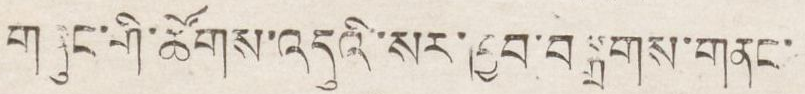གཞུང་གི་ཚོགས་འདུའི་སར་ཁྱབ་བསྒྲགས་གནང་
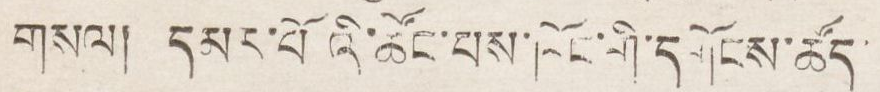གསལ། དམར་པོའི་ཚོང་པས་ཁོང་གི་དགོངས་ཚོད་
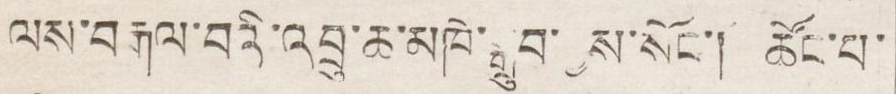ལས་བརྒལ་བའི་འབྲུ་ཆ་མཁེ་སྒྲུབ་བྱས་སོང་། ཚོང་པ་
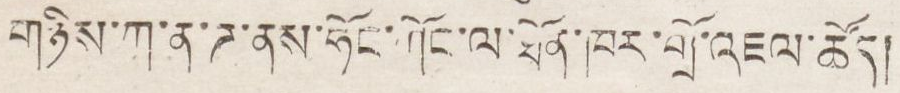གཉིས་ཀ་ན་ཌ་ན་ཤོང་ཀོང་ལ་ཐོན་ཁར་གྲོ་འཇལ་ཚོད།
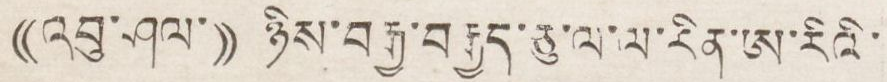((འབུ་ཤལ་)) ཉིས་བརྒྱ་བརྒྱད་ཅུ་ལ་ལ་རིན་ཨ་རིའི་
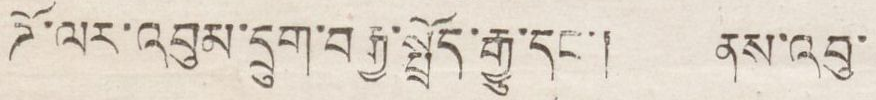ཌོ་ལར་འབུམ་དྲུག་བརྒྱ་སྤྲོད་རྒྱུ་དང་། ནས་འབུ་
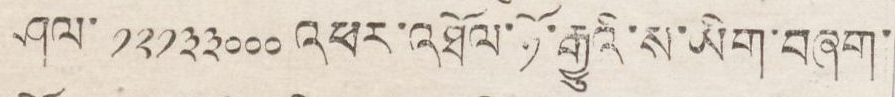ཤལ་ ༡༢༡༣༣༠༠༠ འཕར་འཐོལ་ཉོ་རྒྱུའི་ས་ཡིག་བཞག་
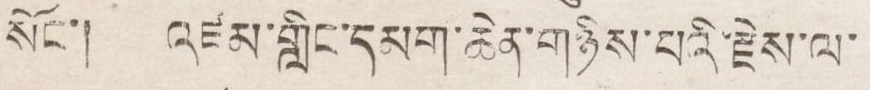སོང་། འཛམ་གླིང་དམག་ཆེན་གཉིས་པའི་རྗེས་ལ་
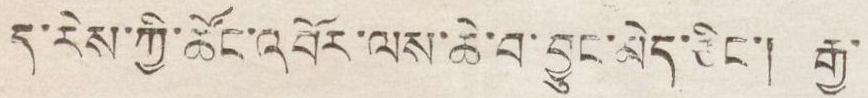ད་རེས་ཀྱི་ཚོང་འབོར་ལས་ཆེ་བ་བྱུང་མེད་ཅིང་། རྒྱ་
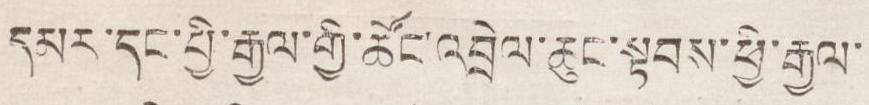དམར་དང་བྱི་རྒྱལ་གྱི་ཚོང་འབྲེལ་ཆུང་སྟབས་ཕྱི་རྒྱལ་
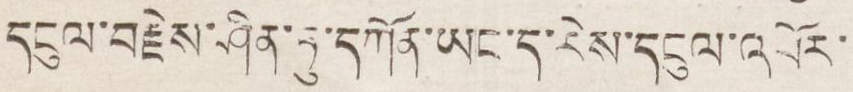དངུལ་བརྗེས་ཤིན་ཏུ་དཀོན་ཡང་ད་རེས་ངེས་དངུལ་འབོར་
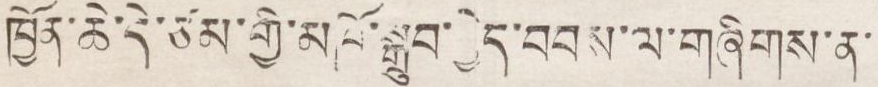ཁྱོན་ཆེ་དེ་ཙམ་གྱི་མཁོ་སྒྲུབ་བྱེད་བབས་ལ་གཞིགས་ན་
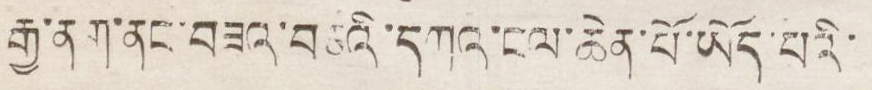རྒྱ་ནག་ནང་བཟའ་བཅའི་དཀའ་ངལ་ཆེན་པོ་ཡོད་པའི་
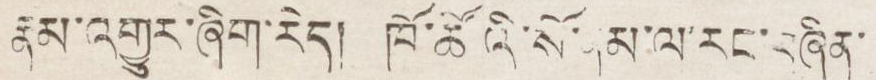རྣམ་འགྱུར་ཞིག་རེད། ཁོ་ཚོའི་སོ་ནམ་ལ་རང་བཞིན་
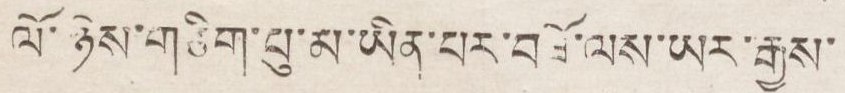ལོ་ཉིས་གཅིག་པུ་མ་ཡིན་པར་བཟོ་ལས་ཡར་རྒྱས་
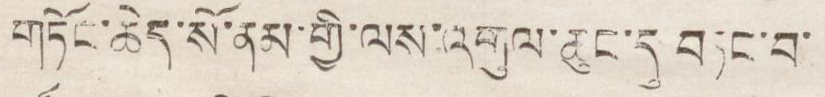གཏོང་ཆེད་སོ་ནམ་གྱི་ལས་འགུལ་ཆུང་དུ་བཏང་བ་
